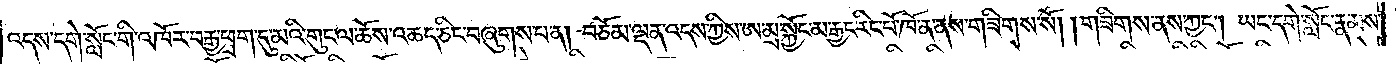འདས་དགེ་སློང་གི་འཁོར་བརྒྱ་ཕྲག་དུ་མའི་གུང་ལ་ཆོས་འཆད་ཅིང་བཞུགས་པ་ན། བཅོམ་ལྡན་འདས་ཀྱིས་ཨ་མྲ་སྐྱོང་མ་རྒྱང་རིང་པོ་ཁོ་ན་ནས་གཟིགས་སོ། །གཟིགས་ནས་ཀྱང༌། ཡང་དགེ་སློང་རྣམས་
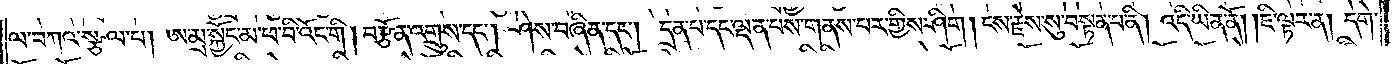ལ་བཀའ་སྩལ་པ། ཨ་མྲ་སྐྱོང་མ་ཕ་བི་འོང་གི། བརྩོན་འགྲུས་དང༌། ཤེས་བཞིན་དང༌། དྲན་པ་དང་ལྡན་པས་གནས་པར་གྱིས་ཤིག །ངས་རྗེས་སུ་བསྟན་པ་ནི། འདི་ཡིན་ནོ། །ཇི་ལྟར་ན། དགེ་
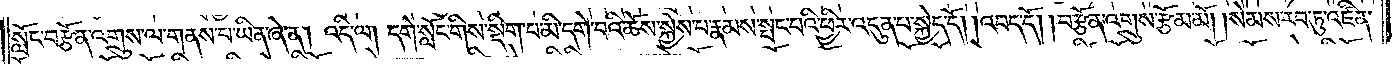སློང་བརྩོན་འགྲུས་ལ་གནས་པ་ཡིན་ཞེ་ན། འདི་ལ། དགེ་སློང་གིས་སྡིག་པ་མི་དགེ་བའི་ཆོས་སྐྱེས་པ་རྣམས་སྤང་བའི་ཕྱིར་འདུན་པ་སྐྱེད་དོ། །འབད་དོ། །བརྩོན་འགྲུས་རྩོམ་མོ། །སེམས་རབ་ཏུ་འཛིན་
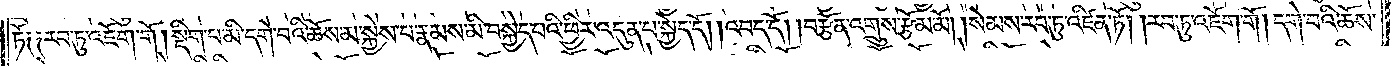ཏོ༑ ༑རབ་ཏུ་འཇོག་གོ། །སྡིག་པ་མི་དགེ་བའི་ཆོས་མ་སྐྱེས་པ་རྣམས་མི་བསྐྱེད་པའི་ཕྱིར་འདུན་པ་སྐྱེད་དོ། །འབད་དོ། །བརྩོན་འགྲུས་རྩོམ་མོ། །སེམས་རབ་ཏུ་འཛིན་ཏོ། །རབ་ཏུ་འཇོག་གོ། །དགེ་བའི་ཆོས་
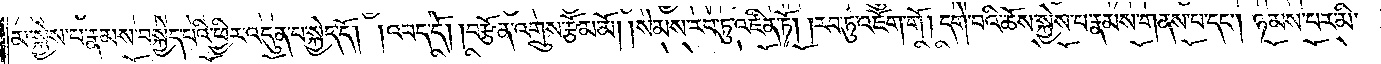མ་སྐྱེས་པ་རྣམས་བསྐྱེད་པའི་ཕྱིར་འདུན་པ་སྐྱེད་དོ། །འབད་དོ། །བརྩོན་འགྲུས་རྩོམ་མོ། །སེམས་རབ་ཏུ་འཛིན་ཏོ། །རབ་ཏུ་འཇོག་གོ། །དགེ་བའི་ཆོས་སྐྱེས་པ་རྣམས་གནས་པ་དང༌། ཉམས་པར་མི་
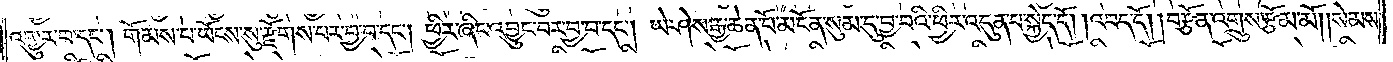འགྱུར་བ་དང༌། གོམས་པ་ཡོངས་སུ་རྫོགས་པར་བྱ་བ་དང༌། ཕྱིར་ཞིང་འབྱུང་བར་བྱ་བ་དང༌། ཡེ་ཤེས་རྒྱ་ཆེན་པོ་མངོན་སུམ་དུ་བྱ་བའི་ཕྱིར་འདུན་པ་སྐྱེད་དོ། །འབད་དོ། །བརྩོན་འགྲུས་རྩོམ་མོ། །སེམས་
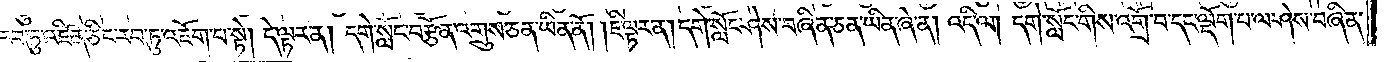རབ་ཏུ་འཛིན་ཅིང་རབ་ཏུ་འཇོག་པ་སྟེ། དེ་ལྟར་ན། དགེ་སློང་བརྩོན་འགྲུས་ཅན་ཡིན་ནོ། །ཇི་ལྟར་ན། དགེ་སློང་ཤེས་བཞིན་ཅན་ཡིན་ཞེ་ན། འདི་ལ། དགེ་སློང་གིས་འགྲོ་བ་དང་ལྡོག་པ་ལ་ཤེས་བཞིན་
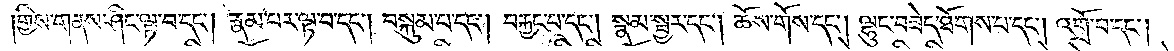གྱིས་གནས་ཤིང་ལྟ་བ་དང༌། རྣམ་པར་ལྟ་བ་དང༌། བསྐུམ་པ་དང༌། བརྐྱང་པ་དང༌། སྣམ་སྦྱར་དང༌། ཆོས་གོས་དང༌། ལྷུང་བཟེད་ཐོགས་པ་དང༌། འགྲོ་བ་དང༌།
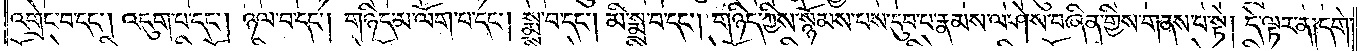འགྲེང་བ་དང༌། འདུག་པ་དང༌། ཉལ་བ་དང༌། གཉིད་མ་ལོག་པ་དང༌། སྨྲ་བ་དང༌། མི་སྨྲ་བ་དང༌། གཉིད་ཀྱིས་སྙོམས་པས་དུབ་པ་རྣམས་ལ་ཤེས་བཞིན་གྱིས་གནས་པ་སྟེ། དེ་ལྟར་ན།དགེ་
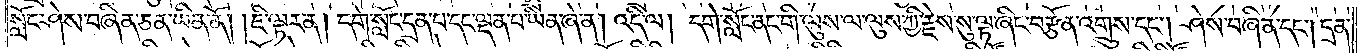སློང་ཤེས་བཞིན་ཅན་ཡིན་ནོ། །ཇི་ལྟར་ན། དགེ་སློང་དྲན་པ་དང་ལྡན་པ་ཡིན་ཞེ་ན། འདི་ལ། དགེ་སློང་ནང་གི་ལུས་ལ་ལུས་ཀྱི་རྗེས་སུ་ལྟ་ཞིང་བརྩོན་འགྲུས་དང༌། ཤེས་བཞིན་དང༌། དྲན་
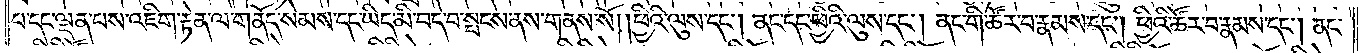པ་དང་ལྡན་པས་འཇིག་རྟེན་ལ་གནོད་སེམས་དང་ཡིད་མི་བདེ་བ་སྤངས་ནས་གནས་སོ། །ཕྱིའི་ལུས་དང༌། ནང་དང་ཕྱིའི་ལུས་དང༌། ནང་གི་ཚོར་བ་རྣམས་དང༌། ཕྱིའི་ཚོར་བ་རྣམས་དང༌། ནང་
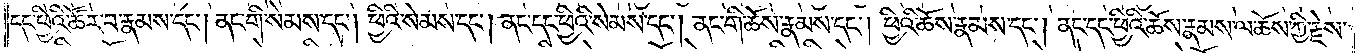དང་ཕྱིའི་ཚོར་བ་རྣམས་དང༌། ནང་གི་སེམས་དང༌། ཕྱིའི་སེམས་དང༌། ནང་དང་ཕྱིའི་སེམས་དང༌། ནང་གི་ཆོས་རྣམས་དང༌། ཕྱིའི་ཆོས་རྣམས་དང༌། ནང་དང་ཕྱིའི་ཆོས་རྣམས་ལ་ཆོས་ཀྱི་རྗེས་
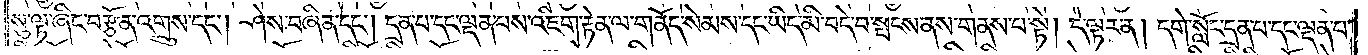སུ་ལྟ་ཞིང་བརྩོན་འགྲུས་དང༌། ཤེས་བཞིན་དང༌། དྲན་པ་དང་ལྡན་པས་འཇིག་རྟེན་ལ་གནོད་སེམས་དང་ཡི་མི་བདེ་བ་སྤངས་ནས་གནས་པ་སྟེ། དེ་ལྟར་ན། དགེ་སློང་དྲན་པ་དང་ལྡན་པ་
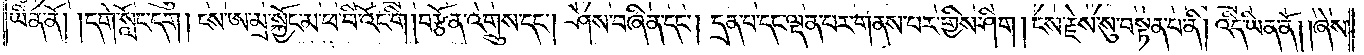ཡིན་ནོ། །དགེ་སློང་དག །ངས་ཨ་མྲ་སྐྱོང་མ་ཕ་བི་འོང་གི། བརྩོན་འགྲུས་དང༌། ཤེས་བཞིན་དང༌། དྲན་པ་དང་ལྡན་པར་གནས་པར་གྱིས་ཤིག །ངས་རྗེས་སུ་བསྟན་པ་ནི། འདི་ཡིན་ནོ། །ཞེས་
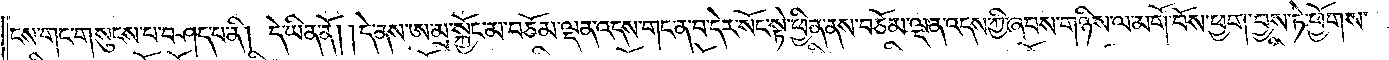ངས་གང་གསུངས་པ་བཤད་པ་ནི། དེ་ཡིན་ནོ། །དེ་ནས་ཨ་མྲ་སྐྱོང་མ་བཅོམ་ལྡན་འདས་གང་ན་བ་དེར་སོང་སྟེ་ཕྱིན་ནས་བཅོམ་ལྡན་འདས་ཀྱི་ཞབས་གཉིས་ལ་མགོ་བོས་ཕྱག་བྱས་ཏེ་ཕྱོགས་
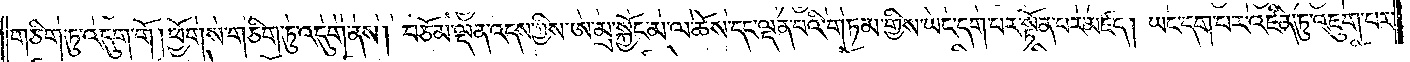གཅིག་ཏུ་འདུག་གོ །ཕྱོགས་གཅིག་ཏུ་འདུག་ནས། བཅོམ་ལྡན་འདས་ཀྱིས་ཨ་མྲ་སྐྱོང་མ་ལ་ཆོས་དང་ལྡན་པའི་གཏམ་གྱིས་ཡང་དག་པར་སྟོན་པར་མཛད། ཡང་དག་པར་འཛིན་ཏུ་འཇུག་པར་
